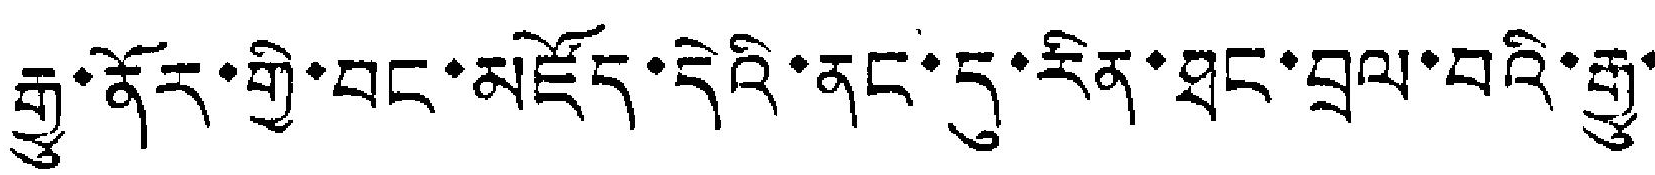རྒྱུ་ནོར་གྱི་བང་མཛོད་དེའི་ནང་དུ་རིན་ཐང་བྲལ་བའི་རྒྱུ་
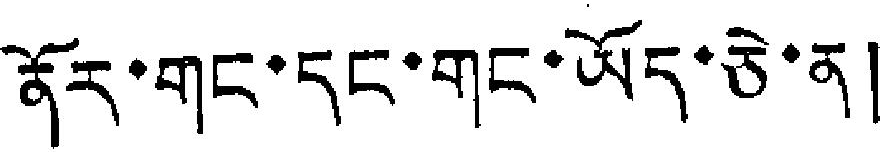ནོར་གང་དང་གང་ཡོད་ཅེ་ན།
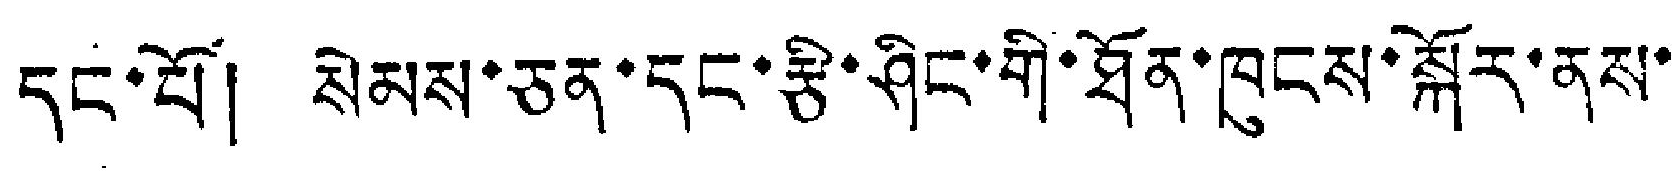དང་པོ། སེམས་ཅན་དང་རྩི་ཤིང་གི་ཐོན་ཁུངས་སྐོར་ནས་
